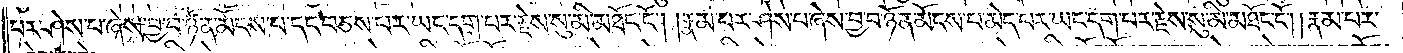པར་ཤེས་པ་ཞེས་བྱ་བ་ཉོན་མོངས་པ་དང་བཅས་པར་ཡང་དག་པར་རྗེས་སུ་མི་མཐོང་ངོ༌། །རྣམ་པར་ཤེས་པ་ཞེས་བྱ་བ་ཉོན་མོངས་པ་མེད་པར་ཡང་དག་པར་རྗེས་སུ་མི་མཐོང་ངོ༌། །རྣམ་པར་
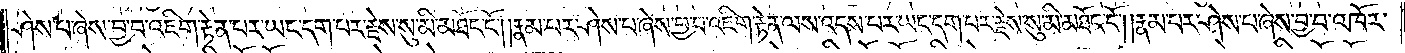ཤེས་པ་ཞེས་བྱ་བ་འཇིག་རྟེན་པར་ཡང་དག་པར་རྗེས་སུ་མི་མཐོང་ངོ༌། །རྣམ་པར་ཤེས་པ་ཞེས་བྱ་བ་འཇིག་རྟེན་ལས་འདས་པར་ཡང་དག་པར་རྗེས་སུ་མི་མཐོང་ངོ༌། །རྣམ་པར་ཤེས་པ་ཞེས་བྱ་བ་འཁོར་
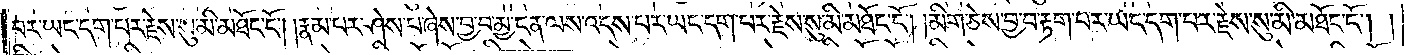བར་ཡང་དག་པར་རྗེས་སུ་མི་མཐོང་ངོ༌། །རྣམ་པར་ཤེས་པ་ཞེས་བྱ་བ་མྱ་ངན་ལས་འདས་པར་ཡང་དག་པར་རྗེས་སུ་མི་མཐོང་ངོ༌། །མིག་ཅེས་བྱ་བ་རྟག་པར་ཡང་དག་པར་རྗེས་སུ་མི་མཐོང་ངོ༌། །
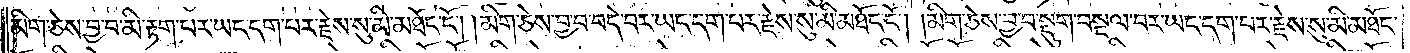མིག་ཅེས་བྱ་བ་མི་རྟག་པར་ཡང་དག་པར་རྗེས་སུ་མི་མཐོང་ངོ༌། །མིག་ཅེས་བྱ་བ་བདེ་བར་ཡང་དག་པར་རྗེས་སུ་མི་མཐོང་ངོ༌། །མིག་ཅེས་བྱ་བ་སྡུག་བསྔལ་བར་ཡང་དག་པར་རྗེས་སུ་མི་མཐོང་
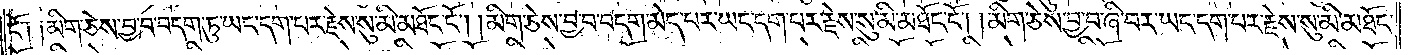ངོ༑ ༑མིག་ཅེས་བྱ་བ་བདག་ཏུ་ཡང་དག་པར་རྗེས་སུ་མི་མཐོང་ངོ༌། །མིག་ཅེས་བྱ་བ་བདག་མེད་པར་ཡང་དག་པར་རྗེས་སུ་མི་མཐོང་ངོ༌། །མིག་ཅེས་བྱ་བ་ཞི་བར་ཡང་དག་པར་རྗེས་སུ་མི་མཐོང་
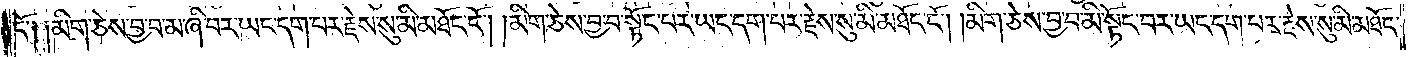ངོ༑ ༑མིག་ཅེས་བྱ་བ་མ་ཞི་བར་ཡང་དག་པར་རྗེས་སུ་མི་མཐོང་ངོ༌། །མིག་ཅེས་བྱ་བ་སྟོང་པར་ཡང་དག་པར་རྗེས་སུ་མི་མཐོང་ངོ༌། །མིག་ཅེས་བྱ་བ་མི་སྟོང་བར་ཡང་དག་པར་རྗེས་སུ་མི་མཐོང་
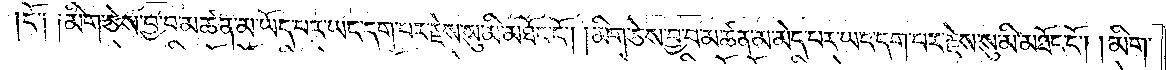ངོ༑ ༑མིག་ཅེས་བྱ་བ་མཚན་མ་ཡོད་པར་ཡང་དག་པར་རྗེས་སུ་མི་མཐོང་ངོ༌། །མིག་ཅེས་བྱ་བ་མཚན་མ་མེད་པར་ཡང་དག་པར་རྗེས་སུ་མི་མཐོང་ངོ༌། །མིག་
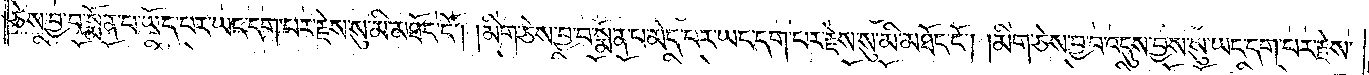ཅེས་བྱ་བ་སྨོན་པ་ཡོད་པར་ཡང་དག་པར་རྗེས་སུ་མི་མཐོང་ངོ༌། །མིག་ཅེས་བྱ་བ་སྨོན་པ་མེད་པར་ཡང་དག་པར་རྗེས་སུ་མི་མཐོང་ངོ༌། །མིག་ཅེས་བྱ་བ་འདུས་བྱས་སུ་ཡང་དག་པར་རྗེས་
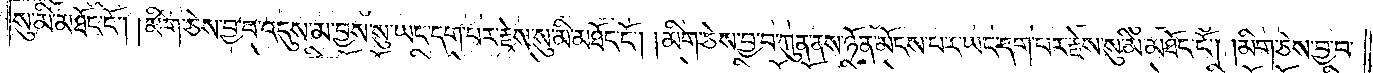སུ་མི་མཐོང་ངོ༌། །མིག་ཅེས་བྱ་བ་འདུས་མ་བྱས་སུ་ཡང་དག་པར་རྗེས་སུ་མི་མཐོང་ངོ༌། །མིག་ཅེས་བྱ་བ་ཀུན་ནས་ཉོན་མོངས་པར་ཡང་དག་པར་རྗེས་སུ་མི་མཐོང་ངོ༌། །མིག་ཅེས་བྱ་བ་
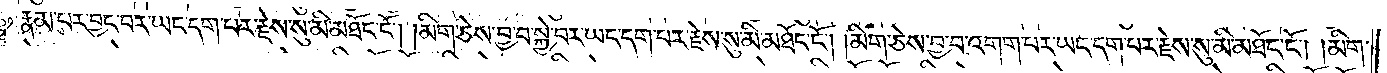རྣམ་པར་བྱང་བར་ཡང་དག་པར་རྗེས་སུ་མི་མཐོང་ངོ༌། །མིག་ཅེས་བྱ་བ་སྐྱེ་བར་ཡང་དག་པར་རྗེས་སུ་མི་མཐོང་ངོ༌། །མིག་ཅེས་བྱ་བ་འགག་པར་ཡང་དག་པར་རྗེས་སུ་མི་མཐོང་ངོ༌། །མིག་
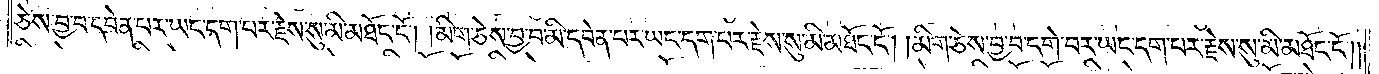ཅེས་བྱ་བ་དབེན་པར་ཡང་དག་པར་རྗེས་སུ་མི་མཐོང་ངོ༌། །མིག་ཅེས་བྱ་བ་མི་དབེན་པར་ཡང་དག་པར་རྗེས་སུ་མི་མཐོང་ངོ༌། །མིག་ཅེས་བྱ་བ་དགེ་བར་ཡང་དག་པར་རྗེས་སུ་མི་མཐོང་ངོ༌༎
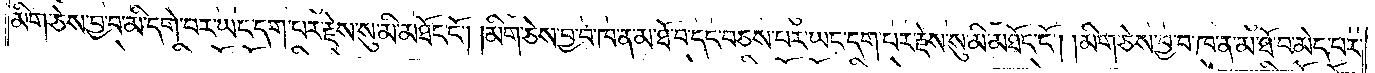མིག་ཅེས་བྱ་བ་མི་དགེ་བར་ཡང་དག་པར་རྗེས་སུ་མི་མཐོང་ངོ༌། །མིག་ཅེས་བྱ་བ་ཁ་ན་མ་ཐོབ་དང་བཅས་པར་ཡང་དག་པར་རྗེས་སུ་མི་མཐོང་ངོ༌། །མིག་ཅེས་བྱ་བ་ཁ་ན་མ་ཐོ་བ་མེད་པར་
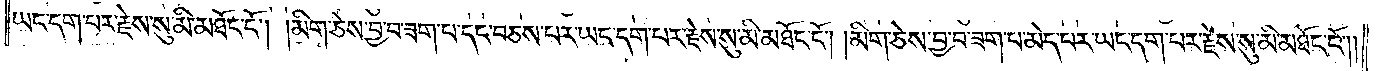ཡང་དག་པར་རྗེས་སུ་མི་མཐོང་ངོ༌། །མིག་ཅེས་བྱ་བ་ཟག་པ་དང་བཅས་པར་ཡང་དག་པར་རྗེས་སུ་མི་མཐོང་ངོ༌། །མིག་ཅེས་བྱ་བ་ཟག་པ་མེད་པར་ཡང་དག་པར་རྗེས་སུ་མི་མཐོང་ངོ༌༎
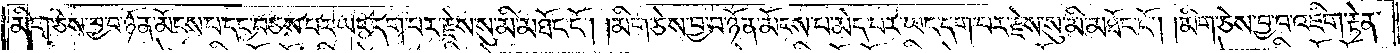མིག་ཅེས་བྱ་བ་ཉོན་མོངས་པ་དང་བཅས་པར་ཡང་དག་པར་རྗེས་སུ་མི་མཐོང་ངོ༌། །མིག་ཅེས་བྱ་བ་ཉོན་མོངས་པ་མེད་པར་ཡང་དག་པར་རྗེས་སུ་མི་མཐོང་ངོ༌། །མིག་ཅེས་བྱ་བ་འཇིག་རྟེན་
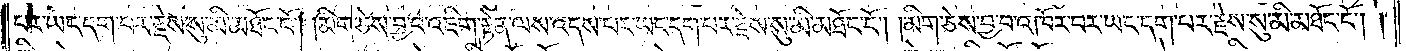པར་ཡང་དག་པར་རྗེས་སུ་མི་མཐོང་ངོ༌། །མིག་ཅེས་བྱ་བ་འཇིག་རྟེན་ལས་འདས་པར་ཡང་དག་པར་རྗེས་སུ་མི་མཐོང་ངོ༌། །མིག་ཅེས་བྱ་བ་འཁོར་བར་ཡང་དག་པར་རྗེས་སུ་མི་མཐོང་ངོ༌། །
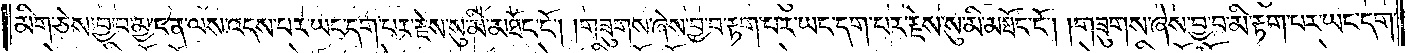མིག་ཅེས་བྱ་བ་མྱ་ངན་ལས་འདས་པར་ཡང་དག་པར་རྗེས་སུ་མི་མཐོང་ངོ༌། །གཟུགས་ཞེས་བྱ་བ་རྟག་པར་ཡང་དག་པར་རྗེས་སུ་མི་མཐོང་ངོ༌། །གཟུགས་ཞེས་བྱ་བ་མི་རྟག་པར་ཡང་དག་
